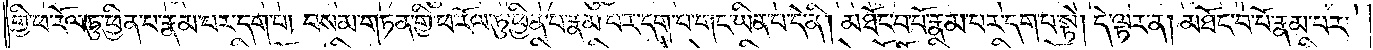གྱི་ཕ་རོལ་ཏུ་ཕྱིན་པ་རྣམ་པར་དག་པ། བསམ་གཏན་གྱི་ཕ་རོལ་ཏུ་ཕྱིན་པ་རྣམ་པར་དག་པ་གང་ཡིན་པ་དེ་ནི། མཐོང་བ་པོ་རྣམ་པར་དག་པ་སྟེ། དེ་ལྟར་ན། མཐོང་བ་པོ་རྣམ་པར་
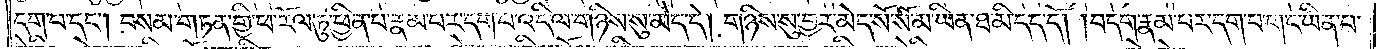དག་པ་དང༌། བསམ་གཏན་གྱི་ཕ་རོལ་ཏུ་ཕྱིན་པ་རྣམ་པར་དག་པ་འདི་ལ་གཉིས་སུ་མེད་དེ། གཉིས་སུ་བྱར་མེད་སོ་སོ་མ་ཡིན་ཐ་མི་དད་དོ། །བདག་རྣམ་པར་དག་པ་གང་ཡིན་པ་
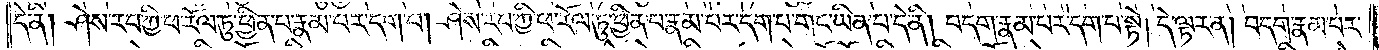དེ་ནི། ཤེས་རབ་ཀྱི་ཕ་རོལ་ཏུ་ཕྱིན་པ་རྣམ་པར་དག་པ། ཤེས་རབ་ཀྱི་ཕ་རོལ་ཏུ་ཕྱིན་པ་རྣམ་པར་དག་པ་གང་ཡིན་པ་དེ་ནི། བདག་རྣམ་པར་དག་པ་སྟེ། དེ་ལྟར་ན། བདག་རྣམ་པར་
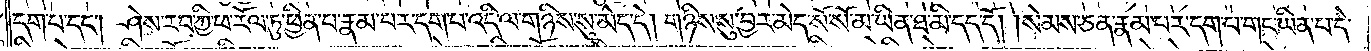དག་པ་དང༌། ཤེས་རབ་ཀྱི་ཕ་རོལ་ཏུ་ཕྱིན་པ་རྣམ་པར་དག་པ་འདི་ལ་གཉིས་སུ་མེད་དེ། གཉིས་སུ་བྱར་མེད་སོ་སོ་མ་ཡིན་ཐ་མི་དད་དོ། །སེམས་ཅན་རྣམ་པར་དག་པ་གང་ཡིན་པ་དེ་
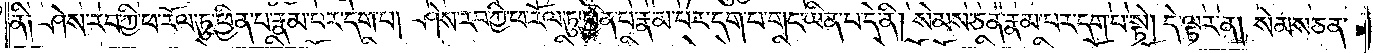ནི། ཤེས་རབ་ཀྱི་ཕ་རོལ་ཏུ་ཕྱིན་པ་རྣམ་པར་དག་པ། ཤེས་རབ་ཀྱི་ཕ་རོལ་ཏུ་ཕྱིན་པ་རྣམ་པར་དག་པ་གང་ཡིན་པ་དེ་ནི། སེམས་ཅན་རྣམ་པར་དག་པ་སྟེ། དེ་ལྟར་ན། སེམས་ཅན་
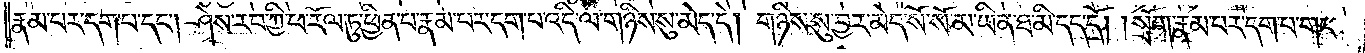རྣམ་པར་དག་པ་དང༌། ཤེས་རབ་ཀྱི་ཕ་རོལ་ཏུ་ཕྱིན་པ་རྣམ་པར་དག་པ་འདི་ལ་གཉིས་སུ་མེད་དེ། གཉིས་སུ་བྱར་མེད་སོ་སོ་མ་ཡིན་ཐ་མི་དད་དོ། །སྲོག་རྣམ་པར་དག་པ་གང་
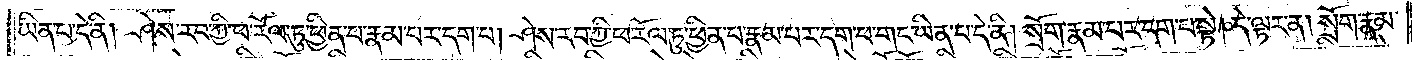ཡིན་པ་དེ་ནི། ཤེས་རབ་ཀྱི་ཕ་རོལ་ཏུ་ཕྱིན་པ་རྣམ་པར་དག་པ། ཤེས་རབ་ཀྱི་ཕ་རོལ་ཏུ་ཕྱིན་པ་རྣམ་པར་དག་པ་གང་ཡིན་པ་དེ་ནི། སྲོག་རྣམ་པར་དག་པ་སྟེ། དེ་ལྟར་ན། སྲོག་རྣམ་
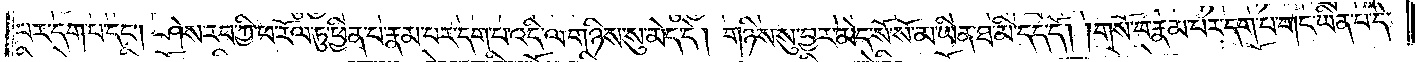པར་དག་པ་དང༌། ཤེས་རབ་ཀྱི་ཕ་རོལ་ཏུ་ཕྱིན་པ་རྣམ་པར་དག་པ་འདི་ལ་གཉིས་སུ་མེད་དེ། གཉིས་སུ་བྱར་མེད་སོ་སོ་མ་ཡིན་ཐ་མི་དད་དོ། །གསོ་བ་རྣམ་པར་དག་པ་གང་ཡིན་པ་དེ་
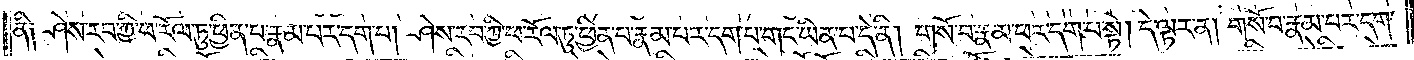ནི། ཤེས་རབ་ཀྱི་ཕ་རོལ་ཏུ་ཕྱིན་པ་རྣམ་པར་དག་པ། ཤེས་རབ་ཀྱི་ཕ་རོལ་ཏུ་ཕྱིན་པ་རྣམ་པར་དག་པ་གང་ཡིན་པ་དེ་ནི། གསོ་བ་རྣམ་པར་དག་པ་སྟེ། དེ་ལྟར་ན། གསོ་བ་རྣམ་པར་དག་
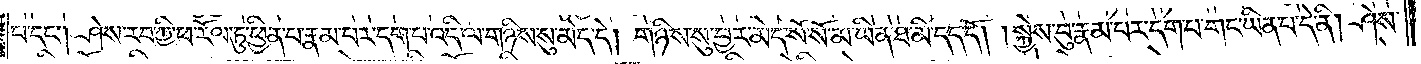པ་དང༌། ཤེས་རབ་ཀྱི་ཕ་རོལ་ཏུ་ཕྱིན་པ་རྣམ་པར་དག་པ་འདི་ལ་གཉིས་སུ་མེད་དེ། གཉིས་སུ་བྱར་མེད་སོ་སོ་མ་ཡིན་ཐ་མི་དད་དོ། །སྐྱེས་བུ་རྣམ་པར་དག་པ་གང་ཡིན་པ་དེ་ནི། ཤེས་
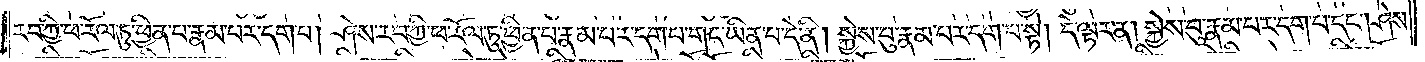རབ་ཀྱི་ཕ་རོལ་ཏུ་ཕྱིན་པ་རྣམ་པར་དག་པ། ཤེས་རབ་ཀྱི་ཕ་རོལ་ཏུ་ཕྱིན་པ་རྣམ་པར་དག་པ་གང་ཡིན་པ་དེ་ནི། སྐྱེས་བུ་རྣམ་པར་དག་པ་སྟེ། དེ་ལྟར་ན། སྐྱེས་བུ་རྣམ་པར་དག་པ་དང༌། ཤེས་
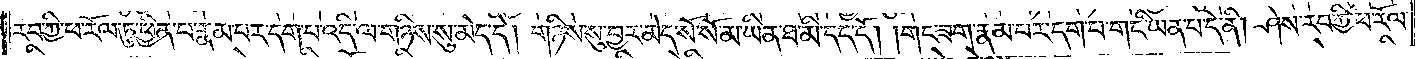རབ་ཀྱི་ཕ་རོལ་ཏུ་ཕྱིན་པ་རྣམ་པར་དག་པ་འདི་ལ་གཉིས་སུ་མེད་དེ། གཉིས་སུ་བྱར་མེད་སོ་སོ་མ་ཡིན་ཐ་མི་དད་དོ། །གང་ཟག་རྣམ་པར་དག་པ་གང་ཡིན་པ་དེ་ནི། ཤེས་རབ་ཀྱི་ཕ་རོལ་
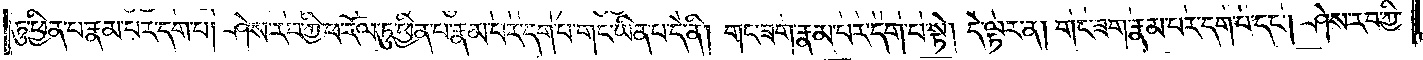ཏུ་ཕྱིན་པ་རྣམ་པར་དག་པ། ཤེས་རབ་ཀྱི་ཕ་རོལ་ཏུ་ཕྱིན་པ་རྣམ་པར་དག་པ་གང་ཡིན་པ་དེ་ནི། གང་ཟག་རྣམ་པར་དག་པ་སྟེ། དེ་ལྟར་ན། གང་ཟག་རྣམ་པར་དག་པ་དང༌། ཤེས་རབ་ཀྱི་
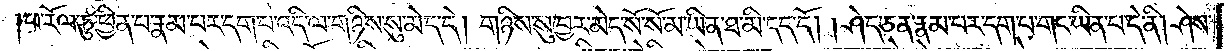ཕ་རོལ་ཏུ་ཕྱིན་པ་རྣམ་པར་དག་པ་འདི་ལ་གཉིས་སུ་མེད་དེ། གཉིས་སུ་བྱར་མེད་སོ་སོ་མ་ཡིན་ཐ་མི་དད་དོ། །ཤེད་ཅན་རྣམ་པར་དག་པ་གང་ཡིན་པ་དེ་ནི། ཤེས་
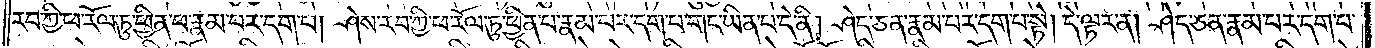རབ་ཀྱི་ཕ་རོལ་ཏུ་ཕྱིན་པ་རྣམ་པར་དག་པ། ཤེས་རབ་ཀྱི་ཕ་རོལ་ཏུ་ཕྱིན་པ་རྣམ་པར་དག་པ་གང་ཡིན་པ་དེ་ནི། ཤེད་ཅན་རྣམ་པར་དག་པ་སྟེ། དེ་ལྟར་ན། ཤེད་ཅན་རྣམ་པར་དག་པ་
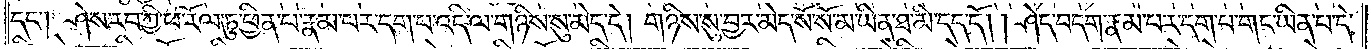དང༌། ཤེས་རབ་ཀྱི་ཕ་རོལ་ཏུ་ཕྱིན་པ་རྣམ་པར་དག་པ་འདི་ལ་གཉིས་སུ་མེད་དེ། གཉིས་སུ་བྱར་མེད་སོ་སོ་མ་ཡིན་ཐ་མི་དད་དོ། །ཤེད་བདག་རྣམ་པར་དག་པ་གང་ཡིན་པ་དེ་
